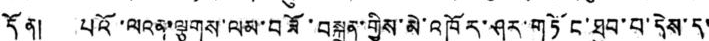དོན། པའོ་ལའན་ལྕགས་ལམ་བཟོ་བསྐྲུན་གྱིས་མེ་འཁོར་ཤར་གཏོང་ཐུབ་པ་དེས་ད་
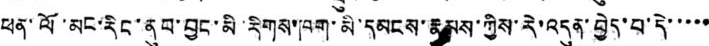ཕན་ལོ་མང་རིང་ནུབ་བྱང་མི་རིགས་ཁག་མི་དམངས་རྣམས་ཀྱིས་རེ་འདུན་བྱེད་པ་དེ་་་་་
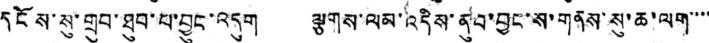དངོས་སུ་གྲུབ་ཐུབ་པ་བྱུང་འདུག ལྕགས་ལམ་འདིས་ནུབ་བྱང་ས་གནས་སུ་ཆ་ལག་་་་
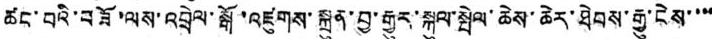ཚང་བའི་བཟོ་ལས་འབྲེལ་སྒོ་འཛུགས་སྐྲུན་བྱ་རྒྱུར་སྐུལ་སྤེལ་ཆེས་ཆེར་ཐེབས་རྒྱུ་ངེས་་་་
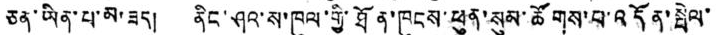ཅན་ཡིན་པ་མ་ཟད། ནིང་ཤའ་ས་ཁུལ་གྱི་ཐོན་ཁུངས་ཕུན་སུམ་ཚོགས་པ་འདོན་སྤེལ་
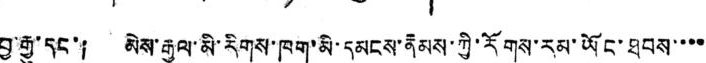བྱ་རྒྱུ་དང་། མེས་རྒྱལ་མི་རིགས་ཁག་མི་དམངས་རྣམས་ཀྱི་རོགས་རམ་ཡོང་ཐབས་་་་
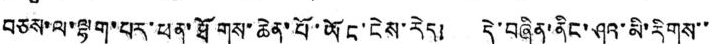བཅས་ལ་ལྷག་པར་ཕན་ཐོགས་ཆེན་པོ་ཡོང་ངེས་རེད། དེ་བཞིན་ནིང་ཤའ་མི་རིགས་་
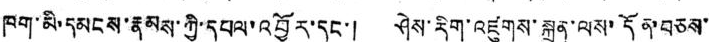ཁག་མི་དམངས་རྣམས་ཀྱི་དཔལ་འབྱོར་དང་། ཤེས་རིག་འཛུགས་སྐྲུན་ལས་དོན་བཅས་
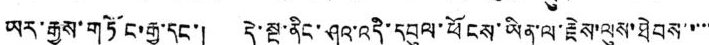ཡར་རྒྱས་གཏོང་རྒྱུ་དང་། དེ་སྔ་ནིང་ཤའ་འདི་དབུལ་ཕོངས་ཡིན་ལ་རྗེས་ལུས་ཐེབས་་་་་
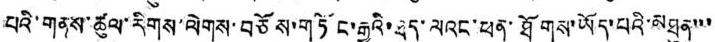པའི་གནས་ཚུལ་རིགས་ལེགས་བཅོས་གཏོང་རྒྱུའི་ཐད་ལའང་ཕན་ཐོགས་ཡོད་པའི་མཐུན་་་
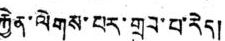རྐྱེན་ལེགས་པར་གྲུབ་པ་རེད།
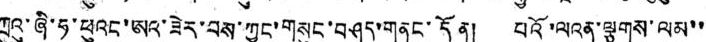ཀྲུའུ་ཞི་ཧ་ཕུའང་ཨའ་ཟེར་བས་ཀྱང་གསུང་བཤད་གནང་དོན། པའོ་ལའན་ལྕགས་ལམ་་
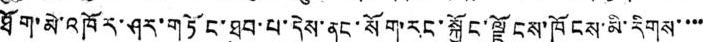ཐོག་མེ་འཁོར་ཤར་གཏོང་ཐུབ་པ་དེས་ནང་སོག་རང་སྐྱོང་ལྗོངས་ཁོངས་མི་རིགས་་་་
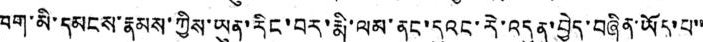ཁག་མི་དམངས་རྣམས་ཀྱིས་ཡུན་རིང་བར་རྨི་ལམ་ནང་དུའང་རེ་འདུན་བྱེད་བཞིན་ཡོད་པ་་
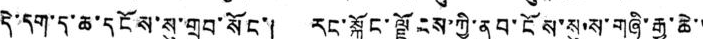དེ་དག་ད་ཆ་དངོས་སུ་གྲུབ་སོང་། རང་སྐྱོང་ལྗོངས་ཀྱི་ནུབ་ངོས་སུ་ས་གཞི་རྒྱ་ཆེ་་
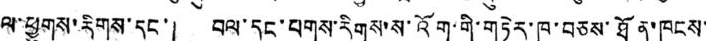ལ་ཕྱུགས་རིགས་དང་། བལ་དང་པགས་རིགས་ས་འོག་གི་གཏེར་ཁ་བཅས་ཐོན་ཁུངས་
